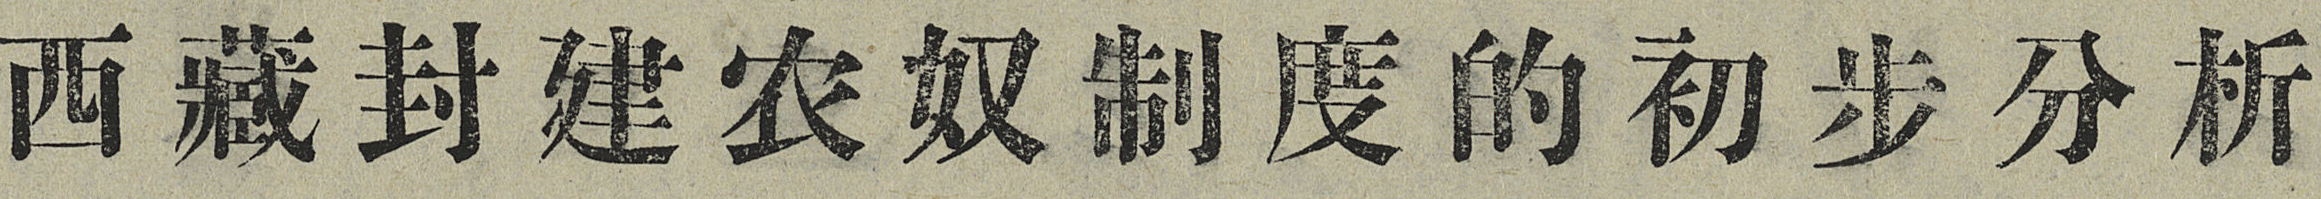西藏封建农奴制度的初步分析
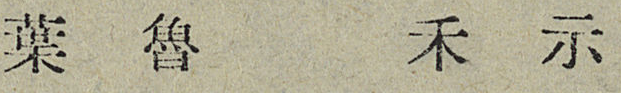葉魯 禾示
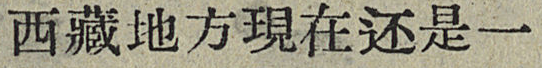西藏地方現在还是一
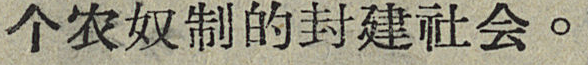个农奴制的封建社会。
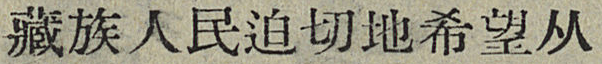藏族人民破切地希望从
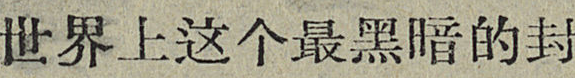世界上这个最黑暗的封
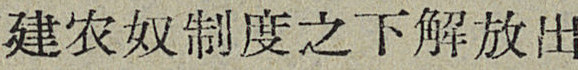建农奴制度之下解放出
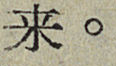来。
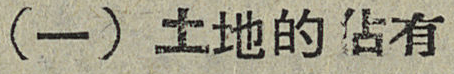（一）土地的佔有
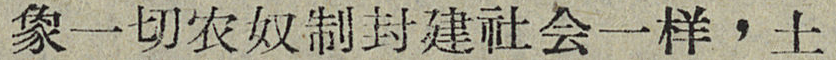象一切农奴制封建社会一样，土
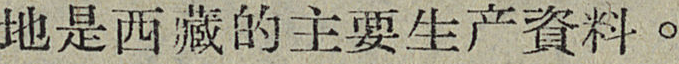地是西藏的主要生产資料。
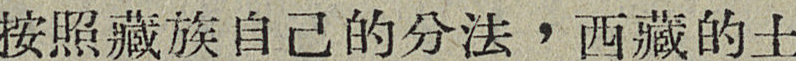按照藏族自己的分法，西藏的土
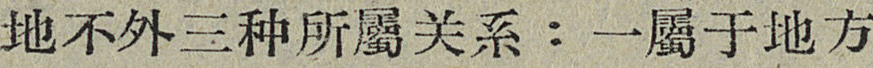地不外三种所屬关系：一屬于地方
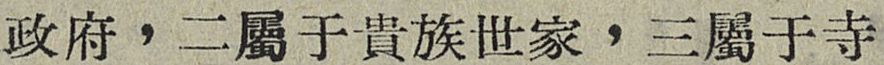政府，二屬于貴族世家，三屬于寺
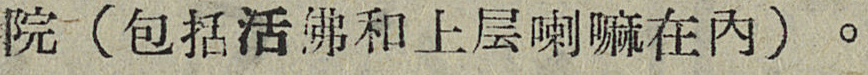院（包括活佛和上层喇嘛在内）。
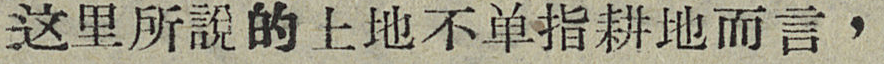这里所說的土地不单指耕地而言，
